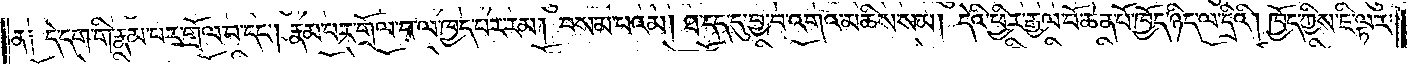ན། དེ་དག་གི་རྣམ་པར་གྲོལ་བ་དང༌། རྣམ་པར་གྲོལ་བ་ལ་ཁྱད་པར་རམ། བསམ་པའམ། ཐ་དད་དུ་བྱ་བ་འགའ་མཆིས་སམ། དེའི་ཕྱིར་རྒྱལ་པོ་ཆེན་པོ་ཁྱོད་ཉིད་ལ་དྲིའི། ཁྱོད་ཀྱིས་ཇི་ལྟར་
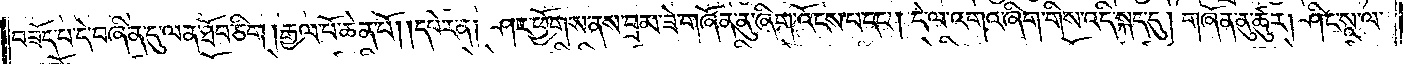བཟོད་པ་དེ་བཞིན་དུ་ལན་ཐོབ་ཅིག །རྒྱལ་པོ་ཆེན་པོ། །དཔེར་ན། ཤར་ཕྱོགས་ནས་བྲམ་ཟེ་གཞོན་ནུ་ཞིག་འོངས་པ་དང༌། དེ་ལ་འགའ་ཞིག་གིས་འདི་སྐད་དུ། གཞོན་ནུ་ཚུར། ཤིང་སཱ་ལ་
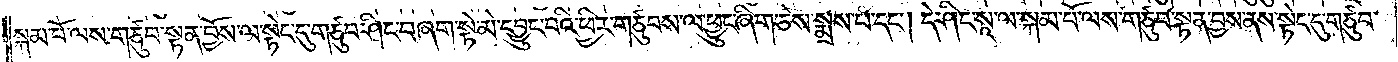སྐམ་པོ་ལས་གཙུབ་སྟན་བྱོས་ལ་སྟེང་དུ་གཙུབ་ཤིང་བཞག་སྟེ་མེ་དབྱུང་བའི་ཕྱིར་གཙུབས་ལ་ཕྱུང་ཞིག་ཅེས་སྨྲས་པ་དང༌། དེ་ཤིན་སཱ་ལ་སྐམ་པོ་ལས་གཙུབ་སྟན་བྱས་ནས་སྟེང་དུ་གཙུབ་
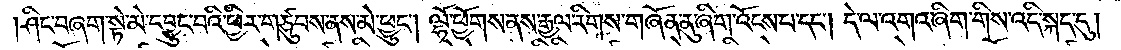ཤིང་བཞག་སྟེ་མེ་དབྱུང་བའི་ཕྱིར་གཙུབས་ནས་མེ་ཕྱུང༌། ལྷོ་ཕྱོགས་ནས་རྒྱལ་རིགས་གཞོན་ནུ་ཞིག་འོངས་པ་དང༌། དེ་ལ་འགའ་ཞིག་གིས་འདི་སྐད་དུ།
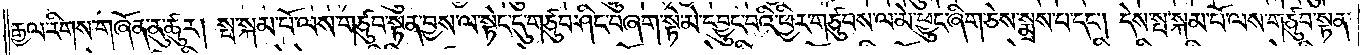རྒྱལ་རིགས་གཞོན་ནུ་ཚུར། སྤ་སྐམ་པོ་ལས་གཙུབ་སྟན་བྱས་ལ་སྟེང་དུ་གཙུབ་ཤིང་བཞག་སྟེ་མེ་དབྱུང་བའི་ཕྱིར་གཙུབས་ལ་མེ་ཕྱུང་ཞིག་ཅེས་སྨྲས་པ་དང༌། དེས་སྤ་སྐམ་པོ་ལས་གཙུབ་སྟན་
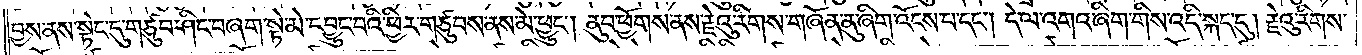བྱས་ནས་སྟེང་དུ་གཙུབ་ཤིང་བཞག་སྟེ་མེ་དབྱུང་བའི་ཕྱིར་གཙུབས་ནས་མེ་ཕྱུང༌། ནུབ་ཕྱོགས་ནས་རྗེའུ་རིགས་གཞོན་ནུ་ཞིག་འོངས་པ་དང༌། དེ་ལ་འགའ་ཞིག་གིས་འདི་སྐད་དུ། རྗེའུ་རིགས་
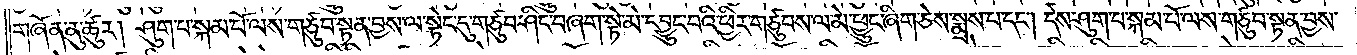གཞོན་ནུ་ཚུར། ཤུག་པ་སྐམ་པོ་ལས་གཙུབ་སྟན་བྱས་ལ་སྟེང་དུ་གཙུབ་ཤིང་བཞག་སྟེ་མེ་དབྱུང་བའི་ཕྱིར་གཙུབས་ལ་མེ་ཕྱུང་ཞིག་ཅེས་སྨྲས་པ་དང༌། དེས་ཤུག་པ་སྐམ་པོ་ལས་གཙུབ་སྟན་བྱས་
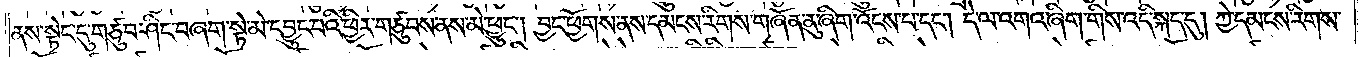ནས་སྟེང་དུ་གཙུབ་ཤིང་བཞག་སྟེ་མེ་དབྱུང་བའི་ཕྱིར་གཙུབས་ནས་མེ་ཕྱུང༌། བྱང་ཕྱོགས་ནས་དམངས་རིགས་གཞོན་ནུ་ཞིག་འོངས་པ་དང༌། དེ་ལ་འགའ་ཞིག་གིས་འདི་སྐད་དུ། ཀྱེ་དམངས་རིགས་
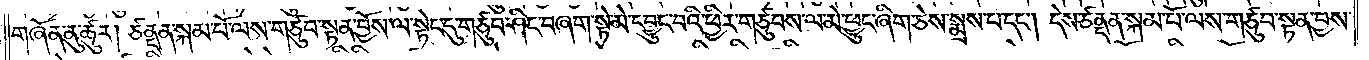གཞོན་ནུ་ཚུར། ཙནྡན་སྐམ་པོ་ལས་གཙུབ་སྟན་བྱོས་ལ་སྟེང་དུ་གཙུབ་ཤིང་བཞག་སྟེ་མེ་དབྱུང་བའི་ཕྱིར་གཙུབས་ལ་མེ་ཕྱུང་ཞིག་ཅེས་སྨྲས་པ་དང༌། དེས་ཙནྡན་སྐམ་པོ་ལས་གཙུབ་སྟན་བྱས་
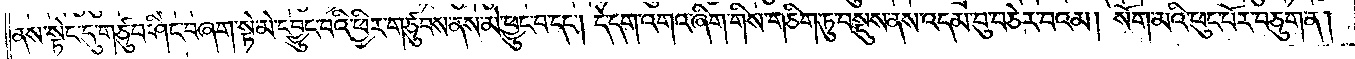ནས་སྟེང་དུ་གཙུབ་ཤིང་བཞག་སྟེ་མེ་དབྱུང་བའི་ཕྱིར་གཙུབས་ནས་མེ་ཕྱུང་བ་དང༌། དེ་དག་འགའ་ཞིག་གིས་གཅིག་ཏུ་བསྡུས་ནས་འདམ་བུ་བཅེར་བའམ། སོག་མའི་ཕུང་པོར་བཅུག་ན།
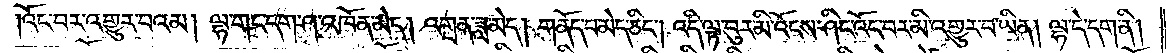།འོང་བར་འགྱུར་བའམ། ལྷ་གང་དག་ཤ་འཁོན་མེད། འགྲན་ཟླ་མེད། གནོད་པ་མེད་ཅིང༌། འདི་ལྟ་བུར་མི་འོངས་ཤིང་འོང་བར་མི་འགྱུར་བ་ཡིན། ལྷ་དེ་དག་ནི།
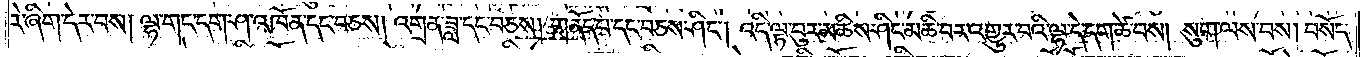རེ་ཞིག་དེར་བས། ལྷ་གང་དག་ཤ་འཁོན་དང་བཅས། འགྲན་ཟླ་དང་བཅས། གནོད་པ་དང་བཅས་ཤིང༌། འདི་ལྟ་བུར་མཆིས་ཤིང་མཆི་བར་འགྱུར་བའི་ལྷ་དེ་དག་ཚེ་བས། སུག་ལས་བས། བསོད་
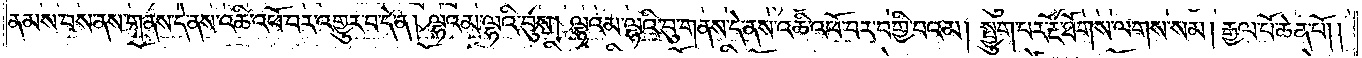ནམས་བས་ནས་གནས་དེ་ནས་འཆི་འཕོ་བར་འགྱུར་བ་དེ་ན། ལྷའམ་ལྷའི་བུས། ལྷའམ་ལྷའི་བུ་གནས་དེ་ནས་འཆི་འཕོ་བར་བགྱི་བའམ། སྤྱུག་པར་རྔོ་ཐོགས་ལགས་སམ། རྒྱལ་པོ་ཆེན་པོ། །
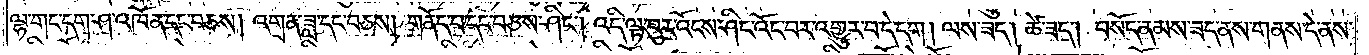ལྷ་གང་དག་ཤ་འཁོན་དང་བཅས། འགྲན་ཟླ་དང་བཅས། གནོད་པ་དང་བཅས་ཤིང༌། འདི་ལྟ་བུར་འོངས་ཤིང་འོང་བར་འགྱུར་བ་དེ་དག །ལས་ཟད། ཚེ་ཟད། བསོད་ནམས་ཟད་ནས་གནས་དེ་ནས་
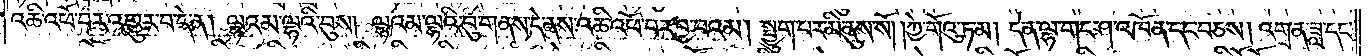འཆི་འཕོ་བར་འགྱུར་བ་དེ་ན། ལྷའམ་ལྷའི་བུས། ལྷའམ་ལྷའི་བུ་གནས་དེ་ནས་འཆི་འཕོ་བར་བྱ་བའམ། སྤྱུག་པར་མི་ནུས་སོ། །ཀྱེ་གོའུ་ཏ་མ། དེ་ན་ལྷ་གང་ཤ་འཁོན་དང་བཅས། འགྲན་ཟླ་དང་
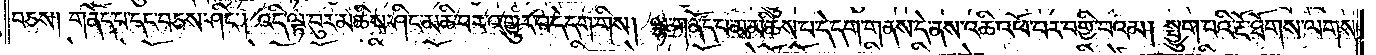བཅས། གནོད་པ་དང་བཅས་ཤིང༌། འདི་ལྟ་བུར་མཆིས་ཤིང་མཆི་བར་འགྱུར་བ་དེ་དག་གིས། ལྷ་གནོད་པ་མཆིས་པ་དེ་དག་གནས་དེ་ནས་འཆི་འཕོ་བར་བགྱི་བའམ། སྤྱུག་པའི་རྔོ་ཐོགས་ལགས་
